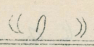(( 2 ))
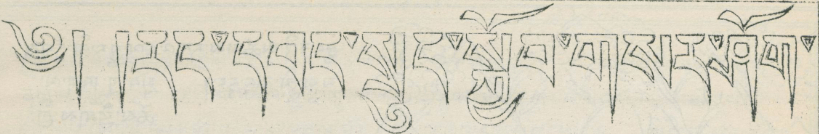༄༅། །རང་དབང་སྲུང་སྐྱོབ་གསར་ཤོག་
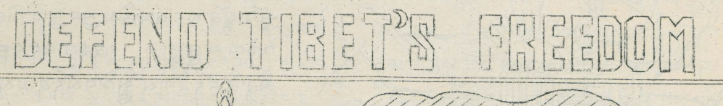DEFEND TIBET'S FREEDOM
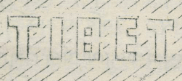TIBET
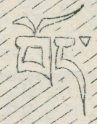བོད་
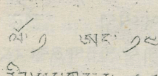ལ་ ༡ ཨང་ ༡༠
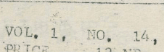VOL. 1. No. 14
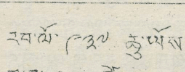རབ་ལོ་ ༩༣༧ ཆུ་ཡོས་
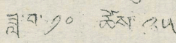ཟླ་བ་ ༡༠ ཚེས་ ༢༥
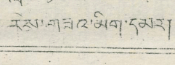རེས་གཟའ་མིག་ལ།།
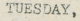TUESDAY,
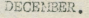DECEMBER.
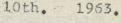10th. 1963.
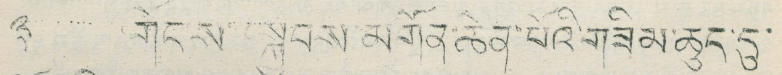༈ གོང་ས་ སྐྱབས་མགོན་ཆེན་པོའི་གཟིམ་ཆུད་དུ་
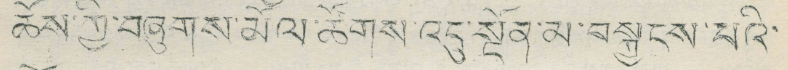ཆོས་ཀྱི་བཞུགས་མོལ་ཚོགས་འདུ་སྔོན་མ་བསྐྱངས་པའི་
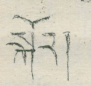སྐོར།
